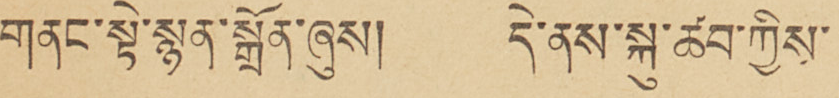གནང་སྟེ་སྙན་སྒྲོན་ཞུས། དེ་ནས་སྐུ་ཚབ་ཀྱིས་
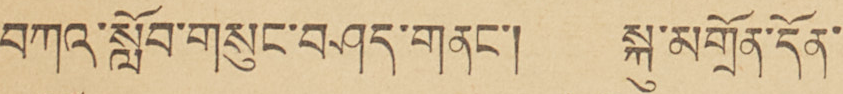བཀའ་སློབ་གསུང་བཤད་གནང་། སྐུ་མགྲོན་དོན་
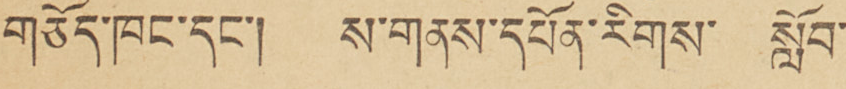གཅོད་ཁང་དང་། ས་གནས་དཔོན་རིགས་ སློབ་
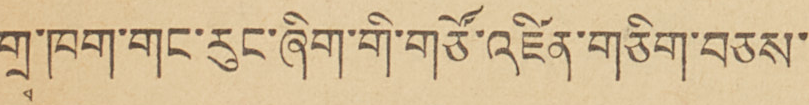གྲྭ་ཁག་གང་རུང་ཞིག་གཙོ་འཛིན་གཅིག་བཅས་
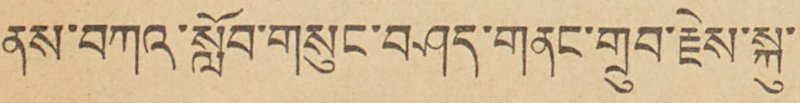ནས་བཀའ་སློབ་གསུང་བཤད་གནང་གྲུབ་རྗེས་སྐུ་
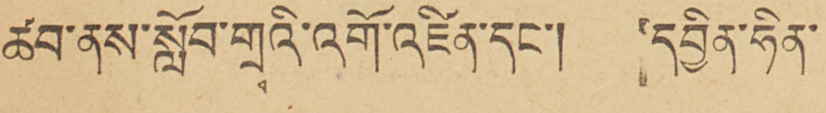ཚབ་ནས་སློབ་གྲྭའི་འགོ་འཛིན་དང་། དབྱིན་ཧིན་
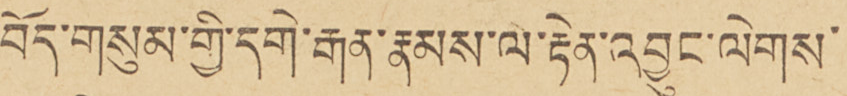བོད་གསུམ་གྱི་དགེ་རྒན་རྣམས་ལ་རྟེན་འབྱུང་ལེགས་
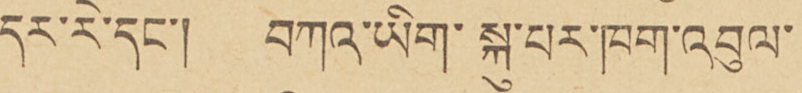དར་རེ་དང་། བཀའ་ཡིག་སྐུ་པར་ཁག་འབུལ་
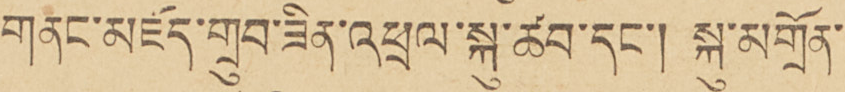གནང་མཛད་གྲུབ་ཟིན་འཕྲལ་སྐུ་ཚབ་དང་། སྐུ་མགྲོན་
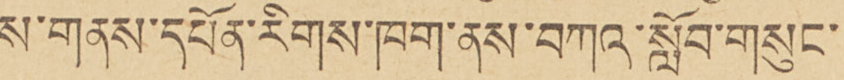ས་གནས་དཔོན་རིགས་ཁག་ནས་བཀའ་སློབ་གསུང་
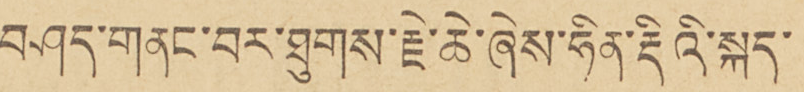བཤད་གནང་བར་ཐུགས་རྗེ་ཆེ་ཞེས་ཧིན་རྡིའི་སྐད་
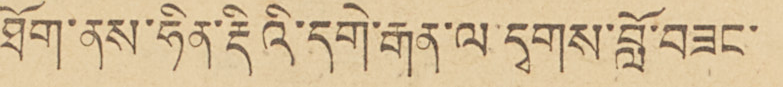ཐོག་ནས་ཧིན་རྡིའི་དགེ་རྒན་ལ་དྭགས་བློ་བཟང་
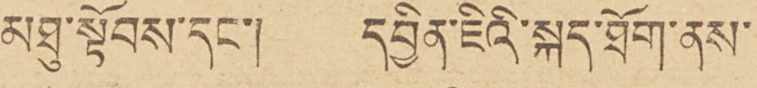མཐུ་སྟོབས་དང་། དབྱིན་ཇིའི་སྐད་ཐོག་ནས་
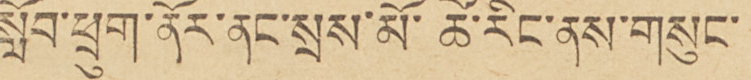སློབ་ཕྲུག་ནོར་ནང་སྲས་མོ་ཚེ་རིང་ནས་གསུང་
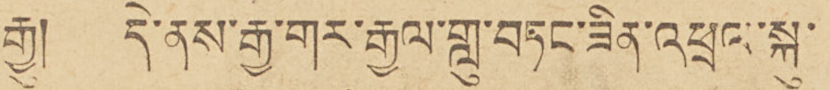རྒྱུ། དེ་ནས་རྒྱ་གར་རྒྱལ་གླུ་བཏང་ཟིན་འཕྲལ་སྐུ་
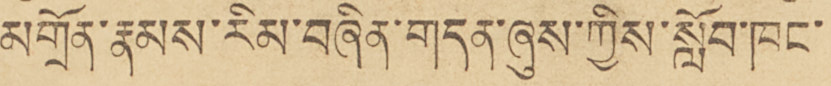མགྲོན་རྣམས་རིམ་བཞིན་གདན་ཞུས་ཀྱིས་སློབ་ཁང་
